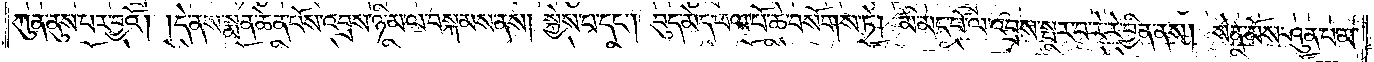ཀུན་ནུས་པར་བྱའོ། །དེ་ནས་སྨན་ཆེན་པོས་འབྲས་ཉི་མ་ལ་བསྐམས་ནས། སྐྱེས་པ་དང༌། བུད་མེད་ཕལ་པོ་ཆེ་བསོགས་ཏེ། མི་མང་པོ་ལ་འབྲས་སྤར་བ་རེ་རེ་བྱིན་ནས། སེན་མོས་ཤུན་པ་མ་
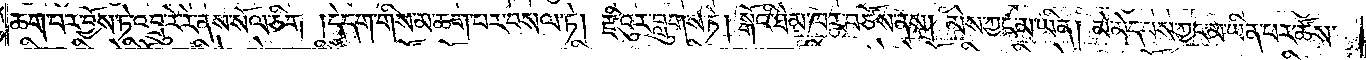ཆག་པར་བྱོས་ཏེ་འབྲུ་རེ་རེ་ནས་སོལ་ཅིག །དེ་དག་གིས་མ་ཆག་པར་བསལ་ཏེ། རྫིའུར་བླུགས་ཏེ། སྒོའི་ཐེམ་ཁར་བཙོས་ནས། མེས་ཀྱང་མ་ཡིན། མེ་མེད་པས་ཀྱང་མ་ཡིན་པར་ཚོས་
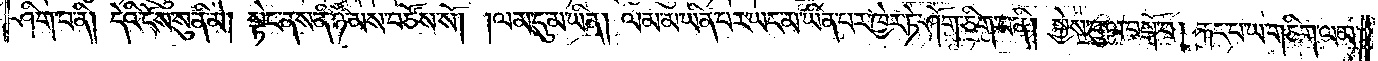ཤིག་པ་ནི། དེའི་ངོས་སུ་ནི་མེ། སྟེང་ནས་ནི་ཉི་མས་བཙོས་སོ། །ལམ་དུ་མ་ཡིན། ལམ་མ་ཡིན་པར་ཡང་མ་ཡིན་པར་ཁྱེར་ཏེ་ཤོག་ཅིག་པ་ནི། སྐྱེས་བུ་ལ་བསྒོ་བ། རྐང་པ་ཡ་གཅིག་ལམ་
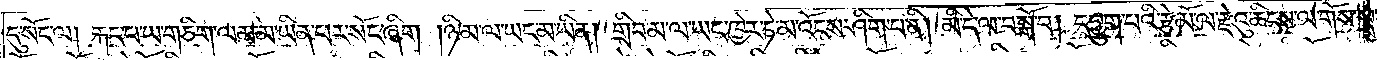དུ་སོང་ལ། རྐང་པ་ཡ་གཅིག་ལམ་མ་ཡིན་པར་སོང་ཞིག །ཉི་མ་ལ་ཡང་མ་ཡིན། གྲིབ་མ་ལ་ཡང་ཁྱེར་ཏེ་མ་འོངས་ཤིག་པ་ནི། མི་དེ་ལ་བསྒོ་བ། དབྱུག་པའི་རྩེ་མོ་ལ་རྫེའུ་ཆིངས་ལ་གོས་སྲབ་
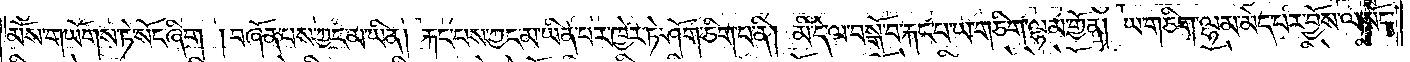མོས་གཡོགས་ཏེ་སོང་ཞིག །བཞོན་པས་ཀྱང་མ་ཡིན། རྐང་པས་ཀྱང་མ་ཡིན་པར་ཁྱེར་ཏེ་ཤོག་ཅིག་པ་ནི། མི་དེ་ལ་བསྒོ་བ་རྐང་པ་ཡ་གཅིག་ལྷམ་གྱོན། ཡ་གཅིག་ལྷམ་མེད་པར་བྱོས་ལ་སོང་
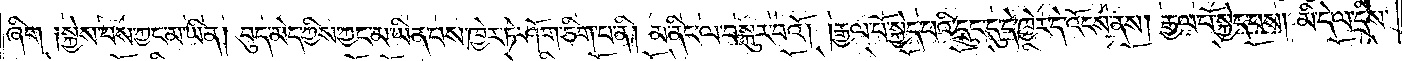ཞིག །སྐྱེས་པས་ཀྱང་མ་ཡིན། བུད་མེད་ཀྱིས་ཀྱང་མ་ཡིན་པས་ཁྱེར་ཏེ་ཤོག་ཅིག་པ་ནི། མ་ནིང་ལ་བསྐུར་བའོ། །རྒྱལ་པོ་སྐྱེད་པའི་དྲུང་དུ་དེ་ཁྱེར་དེ་འོངས་ནས། རྒྱལ་པོ་སྐྱེད་པས། མི་དེ་ལ་དྲིས་
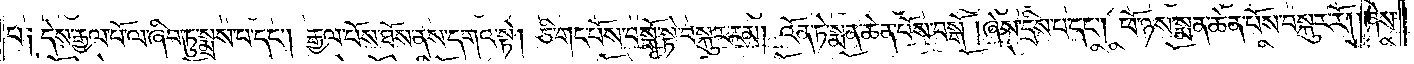པ༑ དེས་རྒྱལ་པོ་ལ་ཞིབ་ཏུ་སྨྲས་པ་དང༌། རྒྱལ་པོས་ཐོས་ནས་དགའ་སྟེ། ཅི་གང་པོས་བསྒོ་སྟེ་བསྐུར་རམ། འོན་ཏེ་སྨན་ཆེན་པོས་བསྒོ་།ཞེས་དྲིས་པ་དང༌། ཕོ་ཉས་སྨན་ཆེན་པོས་བསྐུར་རོ། །ཞེས་
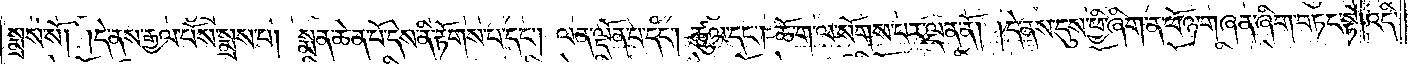སྨྲས་སོ། །དེ་ནས་རྒྱལ་པོས་སྨྲས་པ། སྨན་ཆེན་པོ་དེས་ནི་རྟོགས་པ་དང༌། ལན་ལྡོན་པ་དང༌། ཚུལ་དང༌། ཆོ་ག་ལ་སོགས་པར་ལྡན་ནོ། །དེ་ནས་དུས་ཕྱི་ཞིག་ན་ཕོ་ཉ་གཞན་ཞིག་བཏང་སྟེ། འདི་
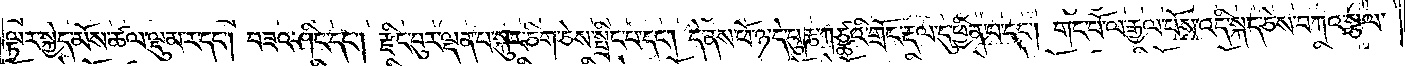ལྟར་སྐྱེད་མོས་ཚལ་ལྡུམ་ར་དང༌། བཟའ་ཤིང་དང༌། རྫིང་བུར་ལྡན་པ་སྐུར་ཅིག་ཅེས་སྤྲིང་པ་དང༌། དེ་ནས་ཕོ་ཉ་དེ་པུརྞ་ཀཙྪའི་གྲོང་རྡལ་དུ་ཕྱིན་པ་དང༌། གང་པོ་ལ་རྒྱལ་པོས་འདི་སྐད་ཅེས་བཀའ་སྩལ་
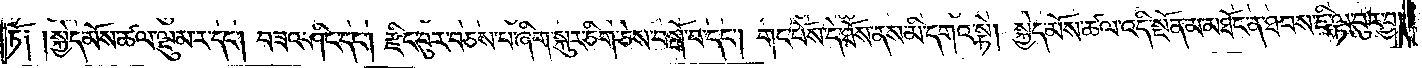ཏོ༑ །སྐྱེད་མོས་ཚལ་ལྡུམ་ར་དང༌། བཟའ་ཤིང་དང༌། རྫིང་བུར་བཅས་པ་ཞིག་སྐུར་ཅིག་ཅེས་བསྒོ་བ་དང༌། གང་པོས་དེ་ཐོས་ནས་མི་དགའ་སྟེ། སྐྱེད་མོས་ཚལ་འདི་སྔོན་མ་མཐོང་ན་ཐབས་ཇི་ལྟ་བུར་བྱ།
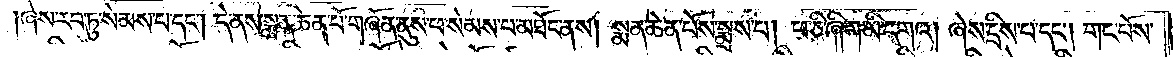ཞེས་རབ་ཏུ་སེམས་པ་དང༌། དེ་ནས་སྨན་ཆེན་པོ་གཞོན་ནུས་ཕ་སེམས་པ་མཐོང་ནས། སྨན་ཆེན་པོས་སྨྲས་པ། ཕ་ཅི་ཞིག་མི་དགའ། ཞེས་དྲིས་པ་དང༌། གང་པོས་
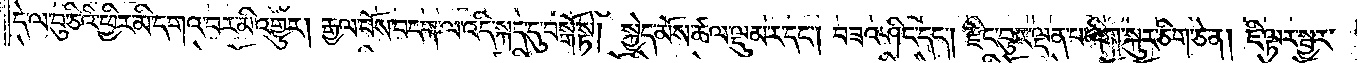དེ་ལ་བུ་ཅིའི་ཕྱིར་མི་དགའ་བར་མི་འགྱུར། རྒྱལ་པོས་བདག་ལ་འདི་སྐད་དུ་བསྒོ་སྟེ། སྐྱེད་མོས་ཚལ་ལྡུམ་ར་དང༌། བཟའ་ཤིང་དང༌། རྫིང་བུར་ལྡན་པ་ཞིག་སྐུར་ཅིག་ཅེ་ན། ཇི་ལྟར་སྦྱར་
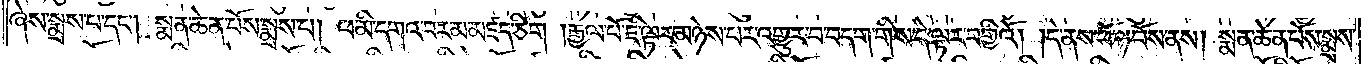ཞེས་སྨྲས་པ་དང༌། སྨན་ཆེན་པོས་སྨྲས་པ། ཕ་མི་དགའ་བར་མ་མཛད་ཅིག །རྒྱལ་པོ་ཇི་ལྟར་མཉེས་པར་འགྱུར་བ་བདག་གིས་དེ་ལྟར་བགྱིའོ། །དེ་ནས་ཕོ་ཉ་བོས་ནས། སྨན་ཆེན་པོས་སྨྲས་
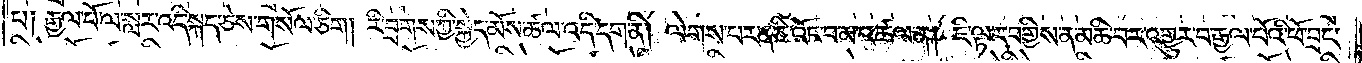པ། རྒྱལ་པོ་ལ་སླར་འདི་སྐད་ཅེས་གསོལ་ཅིག །རི་བྲགས་ཀྱི་སྐྱེད་མོས་ཚལ་འདི་དག་ནི། ལེགས་པར་ན་ཅི་འོང་བ་མ་འཚལ་ན། ཇི་ལྟར་བགྱིས་ན་མཆི་བར་འགྱུར་བ་རྒྱལ་པོའི་ཕོ་བྲང་
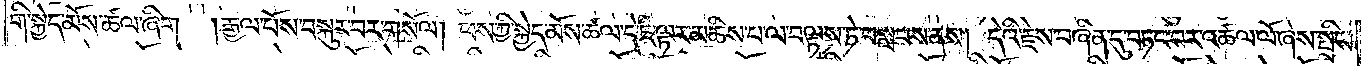གི་སྐྱེད་མོས་ཚལ་ཞིག །རྒྱལ་པོས་བསྐུར་བར་གསོལ། ཕས་ཀྱི་སྐྱེད་མོས་ཚལ་དེ་ཇི་ལྟར་མཆིས་པ་ལ་བལྟས་ཏེ་བསླབས་ནས། དེའི་རྗེས་བཞིན་དུ་བཏང་བར་འཚལ་ལོ་ཞེས་སྤྲིང་
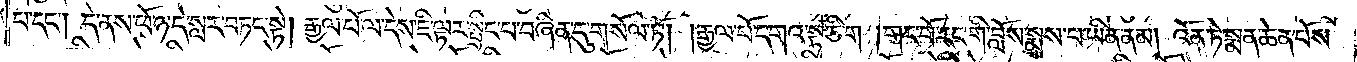པ་དང༌། དེ་ནས་ཕོ་ཉ་དེ་སླར་བཏང་སྟེ། རྒྱལ་པོ་ལ་དེས་ཇི་ལྟར་སྤྲིང་པ་བཞིན་དུ་གསོལ་ཏོ། །རྒྱལ་པོ་དགའ་སྟེ་ཅིག །གང་པོ་རང་གི་བློས་སྨྲས་པ་ཡིན་ནམ། འོན་ཏེ་སྨན་ཆེན་པོས་
